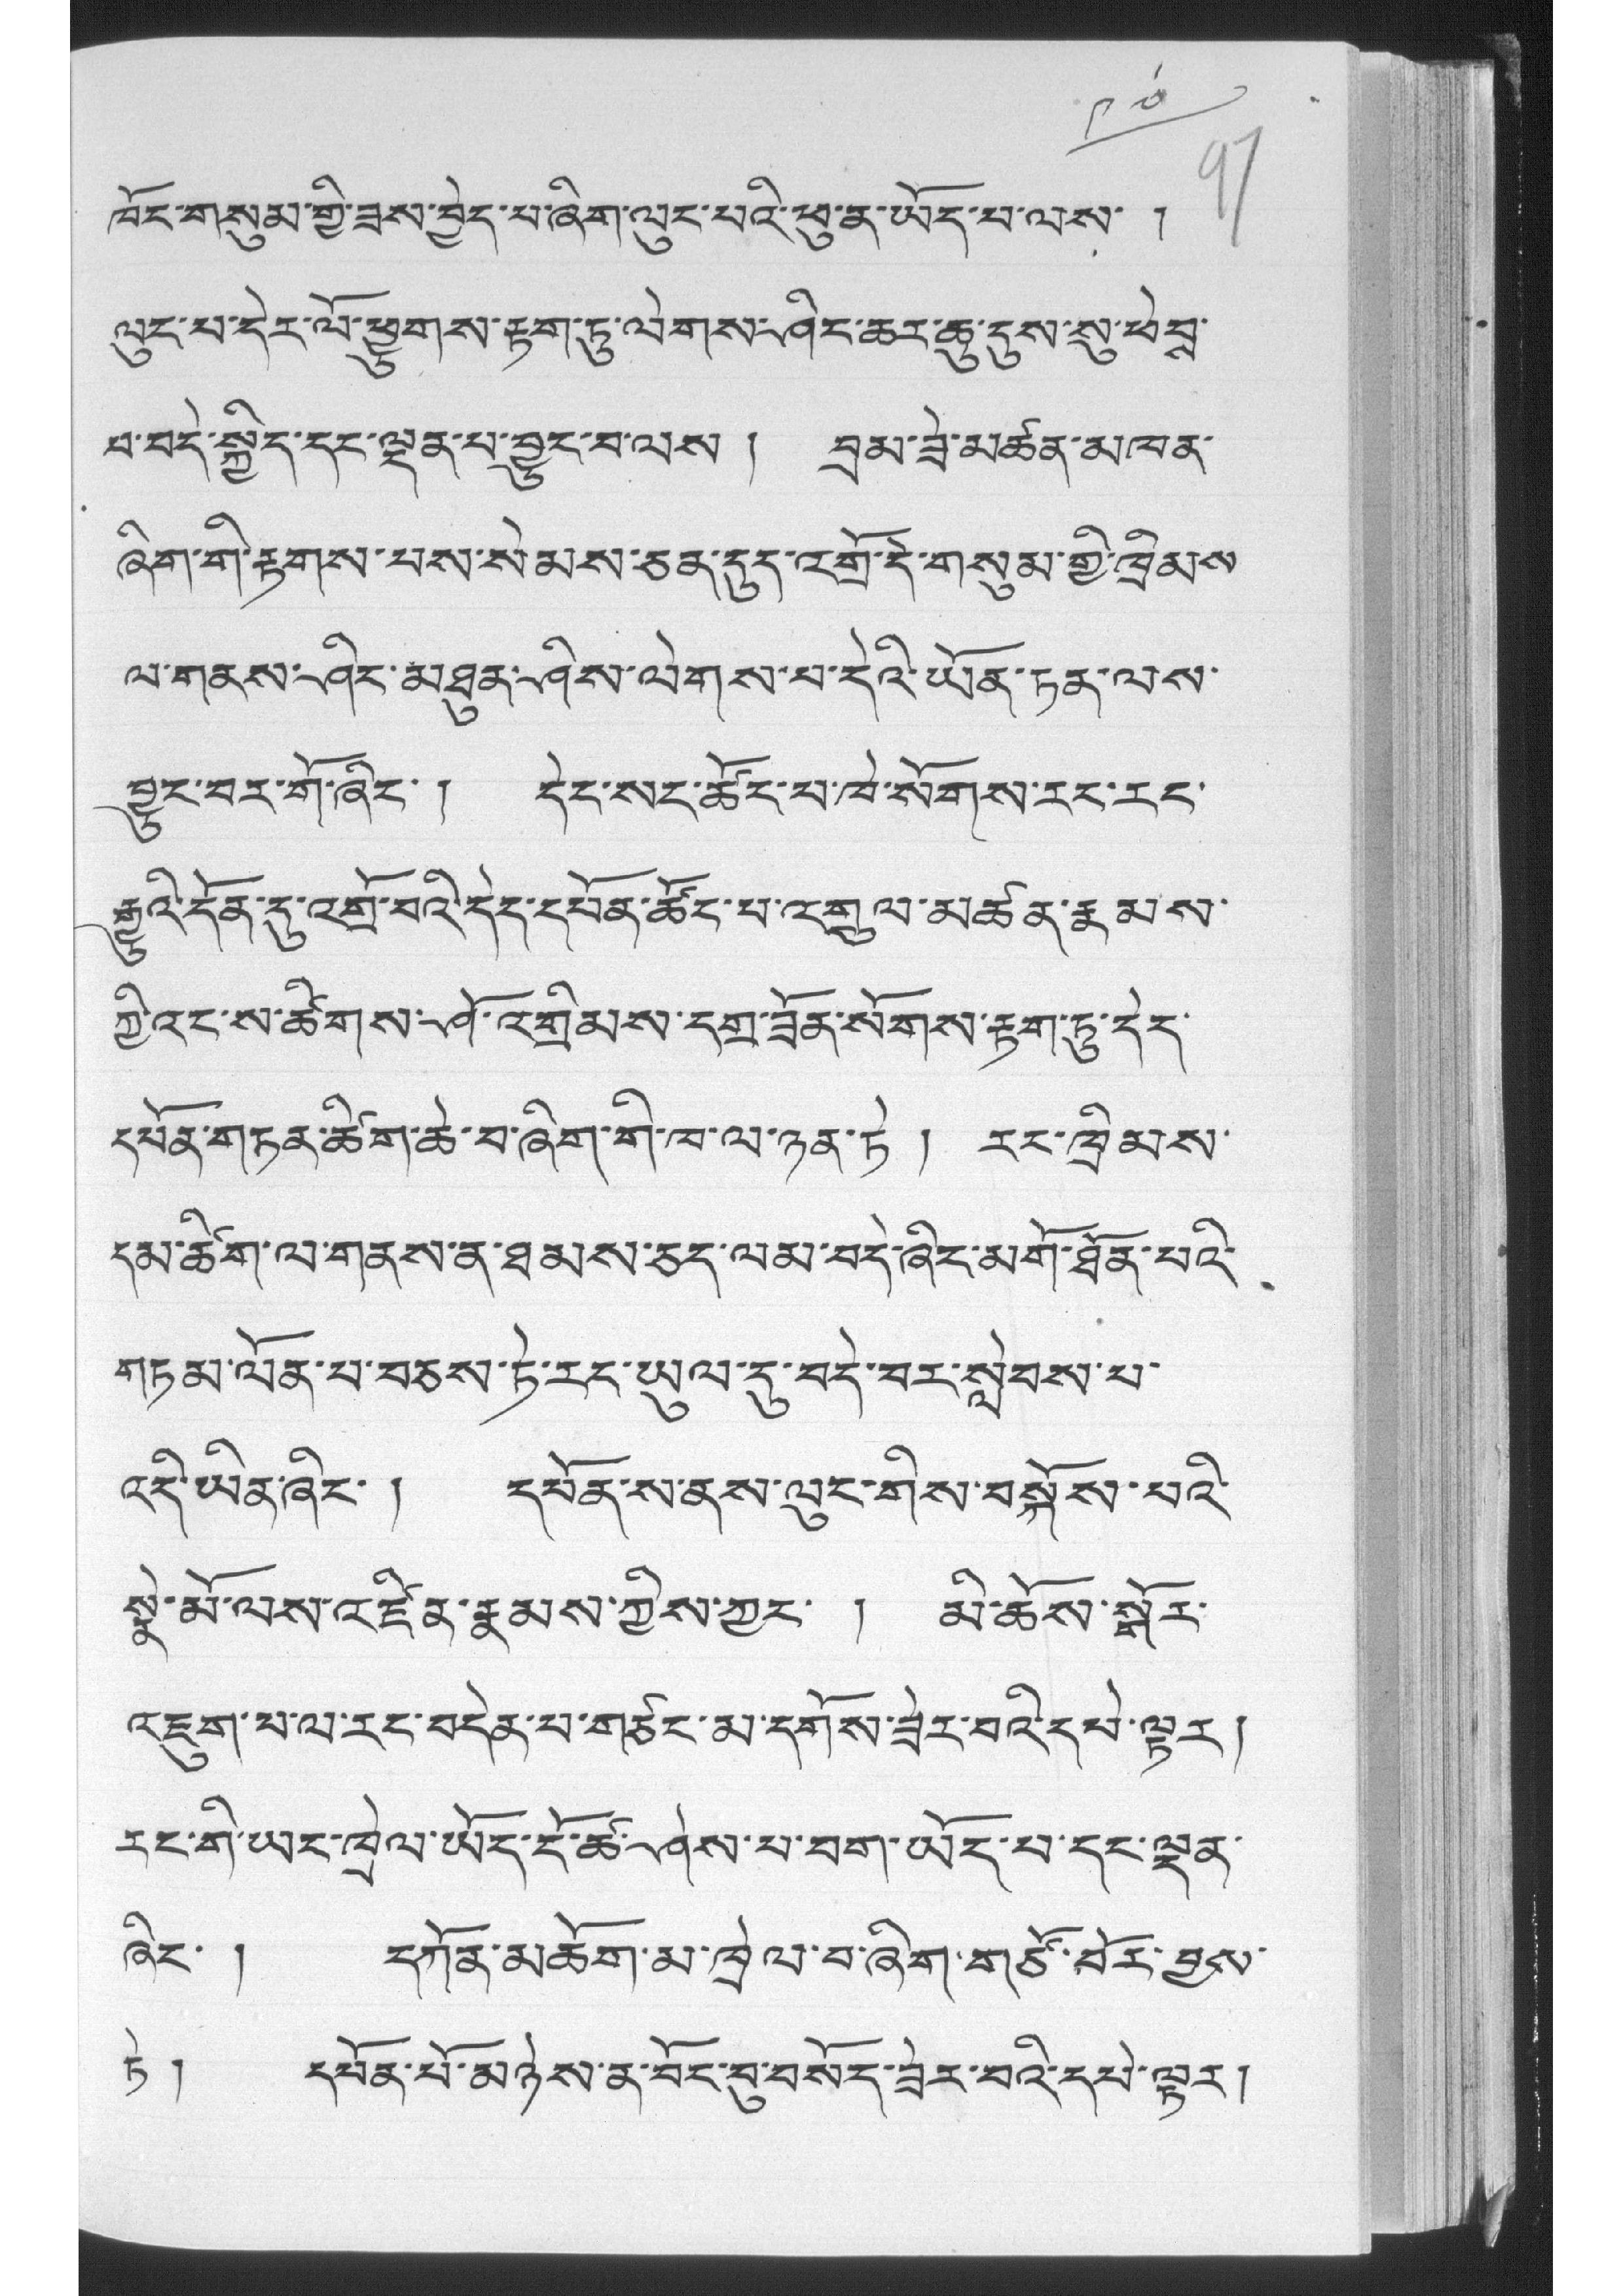༩༧
ཁོང་གསུམ་གྱི་ཟས་བྱེད་པ་ཞིག་ལུང་པའི་ཕུ་ན་ཡོད་པ་ལས་ །
ལུང་པ་དེར་ལོ་ཕྱུགས་རྟག་ཏུ་ལེགས་ཤིང་ཆར་ཆུ་དུས་སུ་ཕེབྶ་
པ་བདེ་སྐྱིད་དང་ལྡན་པ་བྱུང་བ་ལས ། བྲམ་ཟེ་མཚན་མཁན་
ཞིག་གི་རྟགས་པས་སེམས་ཅན་དུད་འགྲོ་དེ་གསུམ་གྱི་ཁྲིམས་
ལ་གནས་ཤིང་མཐུན་ཤིས་ལེགས་པ་དེའི་ཡོན་ཏན་ལས་
བྱུང་བར་གོ་ཞིང་ ། དེང་སང་ཚོང་པ་ཁེ་སོགས་རང་རང་
རྒྱུའི་དོན་དུ་འགྲོ་བའི་དེད་དཔོན་ཚོང་པ་འགྲུལ་མཚན་རྣམས་
ཀྱི་འང་ས་ཚིགས་ཤོ་འགྲིམས་དགྲ་ཟོན་སོགས་རྟག་ཏུ་དེད་
དཔོན་གཏན་ཚིག་ཆེ་བ་ཞིག་གི་ཁ་ལ་ཉན་ཏེ ། རང་ཁྲིམས་
དམ་ཆིག་ལ་གནས་ན་ཐམས་ཅད་ལམ་བདེ་ཞིང་མགོ་ཐོན་པའི་
གཏམ་ལོན་པ་བཅས་ཏེ་རང་ཡུལ་དུ་བདེ་བར་སླེབས་པ་
འདི་ཡན་ཞིང་ ། དཔོན་ས་ནས་ལུང་གིས་བསྐོས་པའི་
སྣེ་མོ་ལས་འཛིན་རྣམས་ཀྱིས་ཀྱང་ ། མི་ཆོས་སྒོར་
འཇུག་པ་ལ་རང་བདེན་པ་གཙང་མ་དགོས་ཟེར་བའི་དཔེ་ལྟར།
རང་གི་ཡང་ཁྲེལ་ཡོད་ངོ་ཚ་ཤེས་པ་བག་ཡོད་པ་དང་ལྡན་
ཞིང་ ། དཀོན་མཆོག་མ་ཁྲེལ་བ་ཞིག་གཙོ་བོར་བྱས་
ཏེ ། དཔོན་པོ་མཉེས་ན་བོང་བུ་བསོད་ཟེར་བའི་དཔེ་ལྟར།
